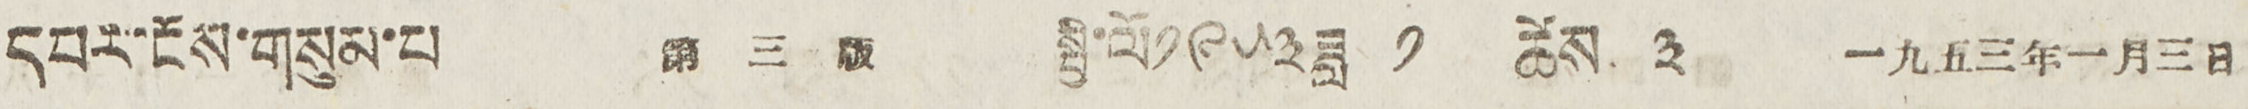དཔར་ངོས་གསུམ་པ 第 三 版 སྤྱི་ལོ༡༩༥༣ཟླ ༡ ཚེས ༣ 一九五三年一月三日
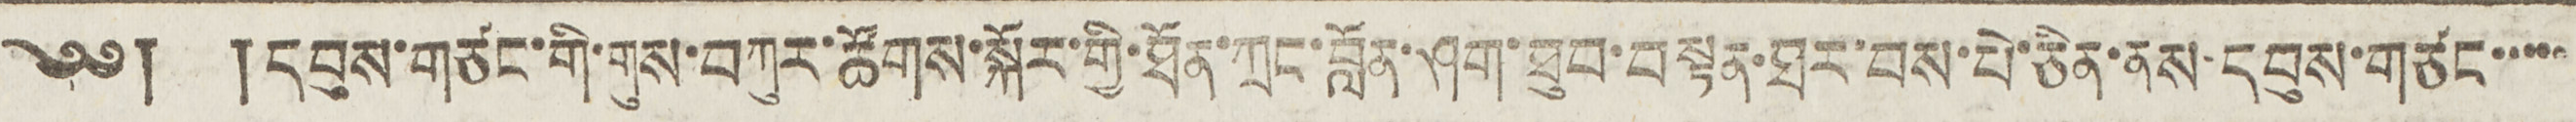༄༅། །དབུས་གཙང་གི་གུས་བཀུར་ཚོགས་སྐོར་གྱི་ཐོན་ཀྲང་བློན་ཤག་ཐུབ་བསྟན་ཐར་བས་པེ་ཅིན་ནས་དབུས་གཙང་་་་་
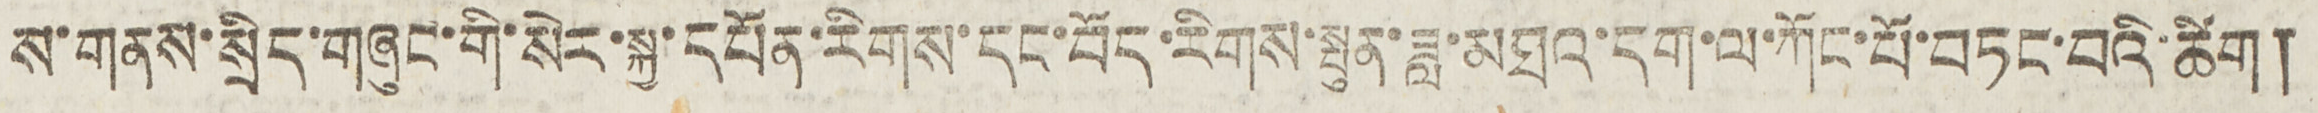ས་གནས་སྲིད་གཞུང་གི་སེར་སྐྱ་དཔོན་རིགས་དང་བོད་རིགས་སྤུན་ཟླ་མཐའ་དག་ལ་ཀོང་པོ་བཏང་བའི་ཚིག།
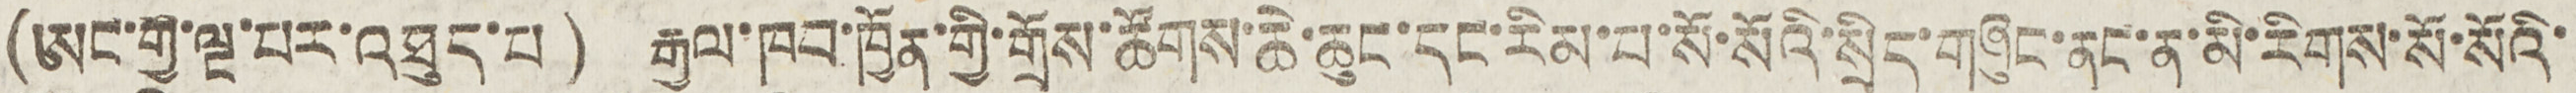(ཨང་གྱི་ལྔ་པར་འཐུད་པ) རྒྱལ་ཁབ་ཁྱོན་གྱི་གྲོས་ཚོགས་ཆེ་ཆུང་དང་རིམ་པ་སོ་སོའི་སྲིད་གཞུང་ནང་ན་མི་རིགས་སོ་སོའི་
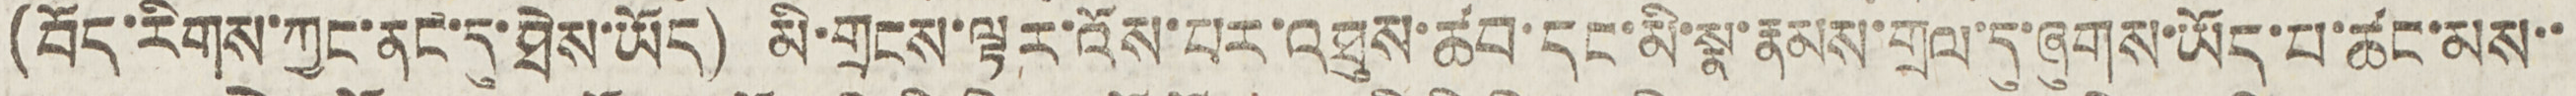(བོད་རིགས་ཀྱང་ནང་དུ་ཐེས་ཡོད) མི་གྲངས་ལྟར་འོས་བར་འཐུས་ཚབ་དང་མི་སྣ་རྣམས་གྲལ་དུ་ཞུགས་ཡོད་པ་ཚང་མས་་
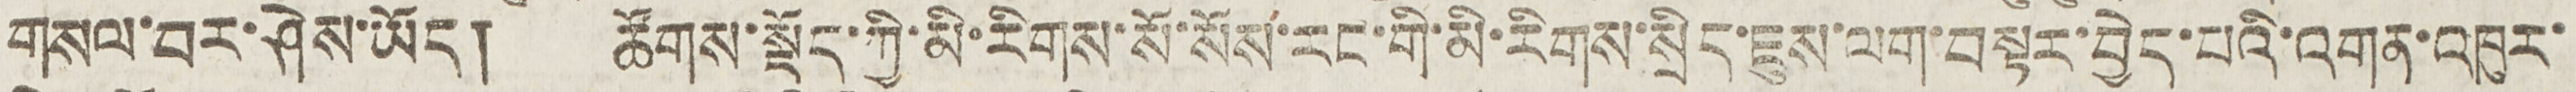གསལ་བར་ཤེས་ཡོད། ཚོགས་སྡོད་གྱི་མི་རིགས་སོ་སོས་རང་གི་མི་རིགས་སྲིད་ཇུས་ལག་བསྟར་བྱེད་པའི་འགན་འཁུར་
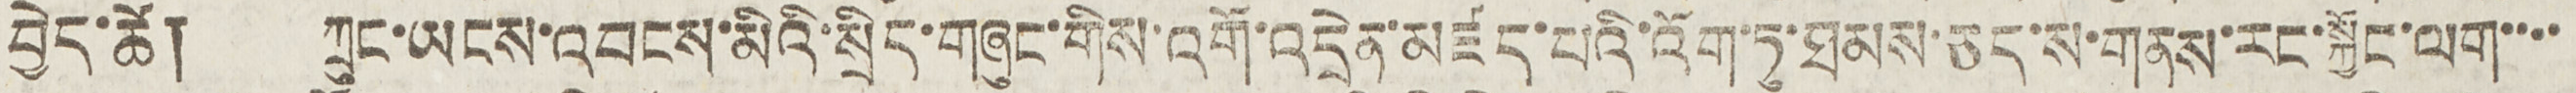བྱེད་ཚེ། ཀྲུང་ཡངས་འབངས་མིའི་སྲིད་གཞུང་གིས་འགོ་འདྲེན་མཛད་པའི་འོག་ཏུ་ཐམས་ཅད་ས་གནས་རང་སྐྱོང་ལག་་་་
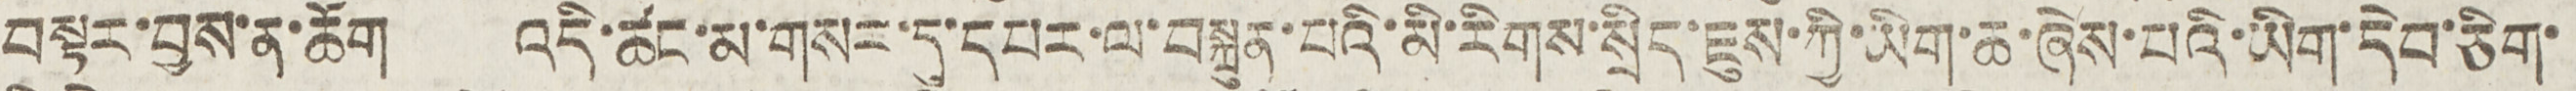བསྟར་བྱས་ན་ཆོག འདི་ཚང་མ་གསར་དུ་དཔར་ལ་བསྐྲུན་པའི་མི་རིགས་སྲིད་ཇུས་ཀྱི་ཡིག་ཆ་ཞེས་པའི་ཡིག་དེབ་ཅིག་
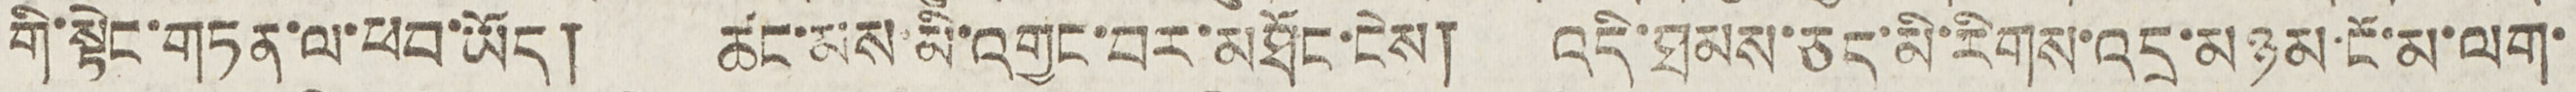གི་སྟེང་གཏན་ལ་ཕབ་ཡོད། ཚང་མས་མི་འགྱང་བར་མཐོང་ངེས། འདི་ཐམས་ཅད་མི་རིགས་འདྲ་མཉམ་ངོ་མ་ལག་
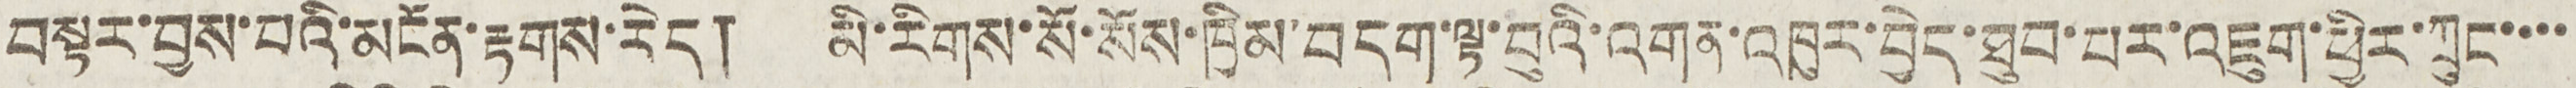བསྟར་བྱས་པའི་མངོན་རྟགས་རེད། མི་རིགས་སོ་སོས་ཁྱིམ་བདག་ལྟ་བུའི་འགན་འཁུར་བྱེད་ཐུབ་པར་འཇུག་ཕྱིར་ཀྲུང་་་་
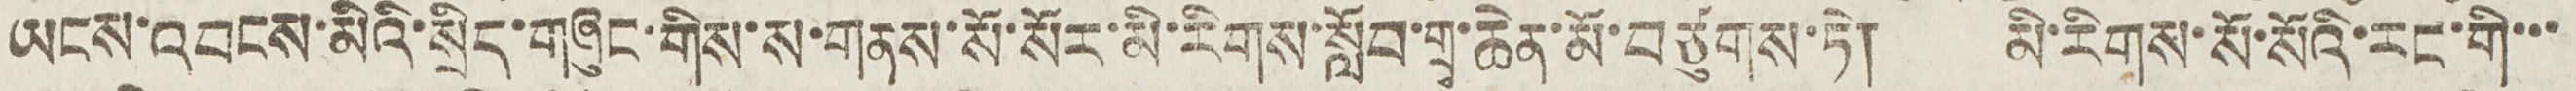ཡངས་འབངས་མིའི་སྲིད་གཞུང་གིས་ས་གནས་སོ་སོར་མི་རིགས་སློབ་གྲྭ་ཆེན་མོ་བཙུགས་ཏེ། མི་རིགས་སོ་སོའི་རང་གི་་་
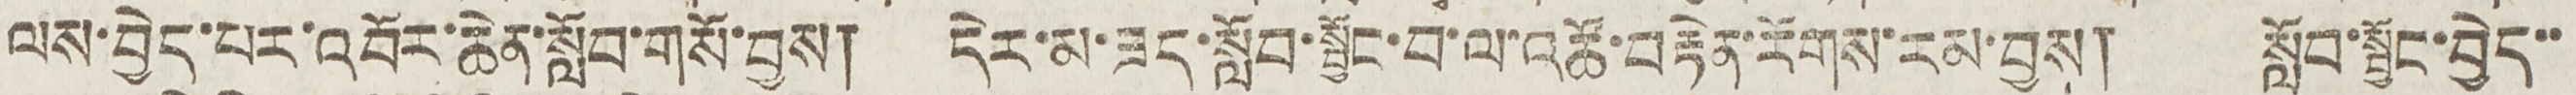ལས་བྱེད་པར་འབོར་ཆེན་སློབ་གསོ་བྱས། དེར་མ་ཟད་སློབ་སྦྱོང་བ་ལ་འཚོ་བརྟེན་རོགས་རམ་བྱས། སློབ་སྦྱོང་བྱེད་་
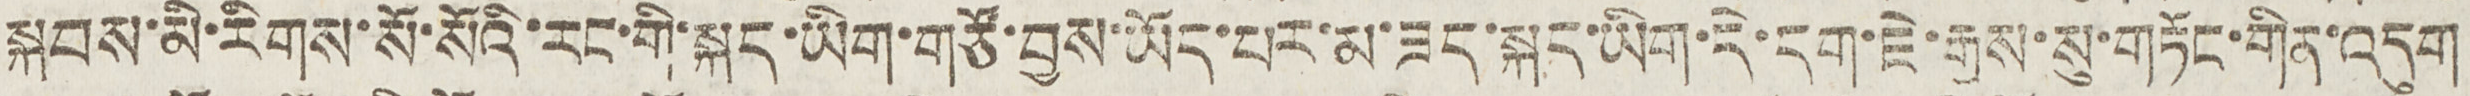སྐབས་མི་རིགས་སོ་སོའི་རང་གི་སྐད་ཡིག་གཙོ་བྱས་ཡོད་པར་མ་ཟད་སྐད་ཡིག་དེ་དག་ཇེ་རྒྱས་སུ་གཏོང་གིན་འདུག
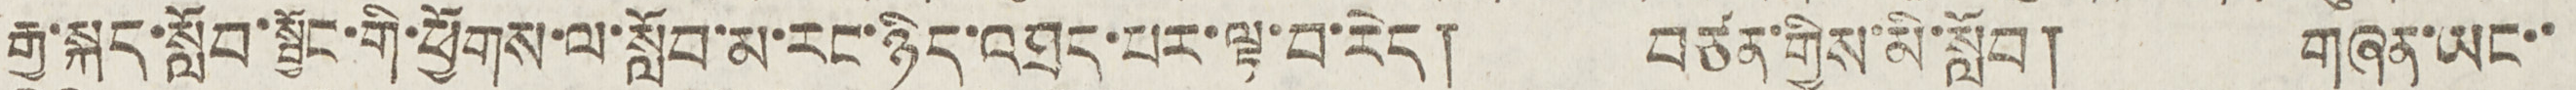རྒྱ་སྐད་སློབ་སྦྱོང་གི་ཕྱོགས་ལ་སློབ་མ་རང་ཉིད་འཐད་པར་ལྟ་བ་རེད། བཙན་གྱིས་མི་སློབ། གཞན་ཡང་་
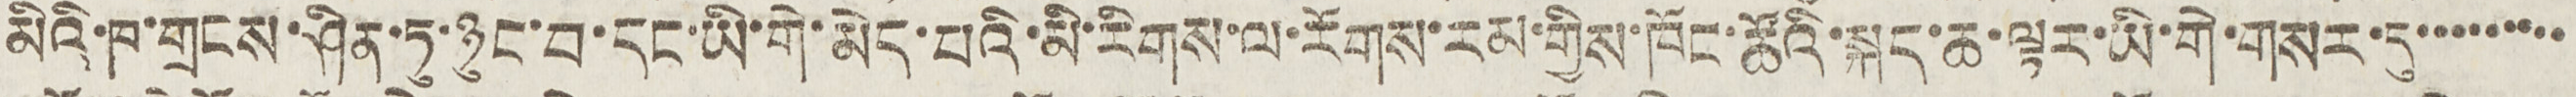མིའི་ཁ་གྲངས་ཤིན་ཏུ་ཉུང་བ་དང་ཡི་གེ་མེད་པའི་མི་རིགས་ལ་རོགས་རམ་གྱིས་ཁོང་ཚོའི་སྐད་ཆ་ལྟར་ཡི་གེ་གསར་དུ་་་་་་་་་
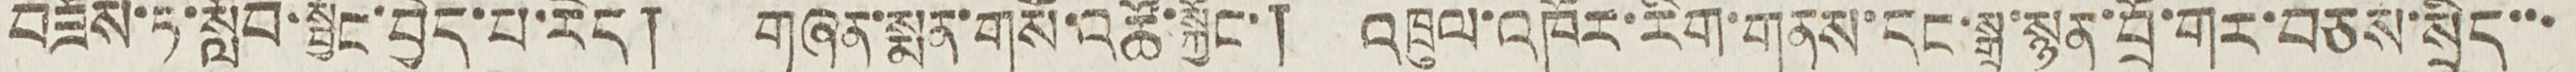བཟོས་ཏེ་སློབ་སྦྱོང་བྱེད་པ་རེད། གཞན་སྨན་གསོ་འཚོ་སྐྱོང་། འཁྲུལ་འཁོར་རིག་གནས་དང་སྒྲ་སྙན་བྲོ་གར་བཅས་སྲིད་་་
